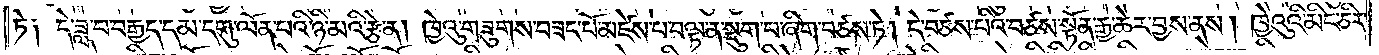ཏེ། དེ་ཟླ་བ་བརྒྱད་དམ་དགུ་ལོན་པའི་ཉི་མའི་རྩེ་ན། ཁྱེའུ་གཟུགས་བཟང་པོ་མཛེས་པ་བལྟ་ན་སྡུག་པ་ཞིག་བཙས་ཏེ། དེ་བཙས་པའི་བཙས་སྟོན་རྒྱ་ཆེར་བྱས་ནས། ཁྱེའུའི་མིང་ཅིར་
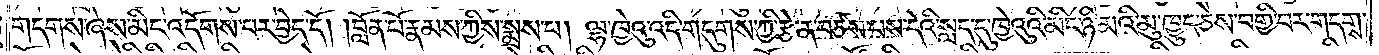གདགས་ཞེས་མིང་འདོགས་པར་བྱེད་དོ། །བློན་པོ་རྣམས་ཀྱིས་སྨྲས་པ། ལྷ་ཁྱེའུ་འདི་གདུགས་ཀྱི་རྩེ་ན་བཙས་པས་དེའི་སླད་དུ་ཁྱེའུའི་མིང་ཉི་མའི་མུ་ཁྱུད་ཅེས་བགྱི་བར་གདགས་
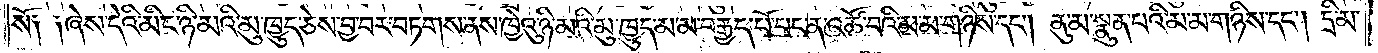སོ། །ཞེས་དེའི་མིང་ཉི་མའི་མུ་ཁྱུད་ཅེས་བྱ་བར་བཏགས་ནས་ཁྱེའུ་ཉི་མའི་མུ་ཁྱུད་མ་མ་བརྒྱད་པོ་པང་ན་འཚོ་བའི་མ་མ་གཉིས་དང༌། ནུ་མ་སྣུན་པའི་མ་མ་གཉིས་དང༌། དྲི་མ་
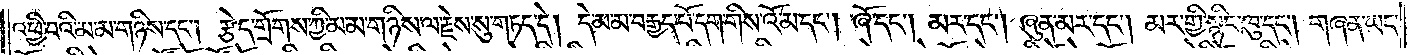འཕྱི་བའི་མ་མ་གཉིས་དང༌། རྩེད་གྲོགས་ཀྱི་མ་མ་གཉིས་ལ་རྗེས་སུ་གཏད་དེ། དེ་མ་མ་བརྒྱད་པོ་དག་གིས་འོ་མ་དང༌། ཞོ་དང༌། མར་དང༌། ཞུན་མར་དང༌། མར་གྱི་སྙིང་ཁུ་དང༌། གཞན་ཡང་
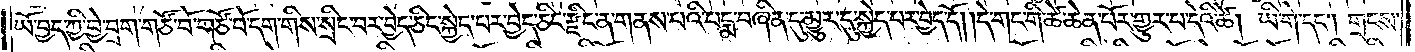ཡོ་བྱད་ཀྱི་བྱེ་བྲག་གཙོ་བོ་གཙོ་བོ་དག་གིས་སྲིང་བར་བྱེད་ཅིང་སྐྱེད་པར་བྱེད་ཅིང་རྫིང་ན་གནས་པའི་པདྨ་བཞིན་དུ་མྱུར་དུ་སྐྱེད་པར་བྱེད་དོ། །དེ་གང་གི་ཚེ་ཆེན་པོར་གྱུར་པ་དེའི་ཚེ། ཡི་གེ་དང༌། གྲངས་
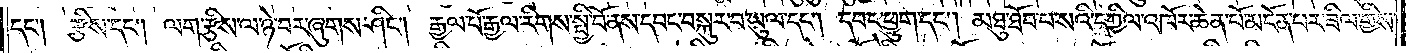དང༌། རྩིས་དང༌། ལག་རྩིས་ལ་ཉེ་བར་ཞུགས་ཤིང༌། རྒྱལ་པོ་རྒྱལ་རིགས་སྤྱི་བོ་ནས་དབང་བསྐུར་བ་ཡུལ་དང༌། དབང་ཕྱུག་དང༌། མཐུ་ཐོབ་པ་སའི་དཀྱིལ་འཁོར་ཆེན་པོ་མངོན་པར་ཟིལ་གྱིས་
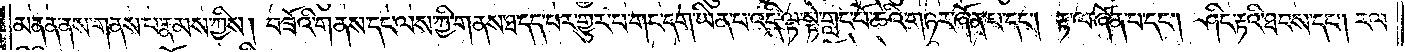མནན་ནས་གནས་པ་རྣམས་ཀྱིས། བཟོའི་གནས་དང་ལས་ཀྱི་གནས་ཐ་དད་པར་གྱུར་པ་གང་དག་ཡིན་པ་འདི་ལྟ་སྟེ་གླང་པོ་ཆེའི་གཉར་ཞོན་པ་དང༌། རྟ་ལ་ཞོན་པ་དང༌། ཤིང་རྟའི་ཐབས་དང༌། རལ་
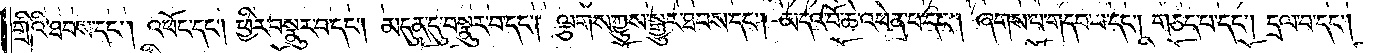གྲིའི་ཐབས་དང༌། འཕོང་དང༌། ཕྱིར་བསྣུར་བ་དང༌། མདུན་དུ་བསྣུར་བ་དང༌། ལྕགས་ཀྱུས་སྒྱུར་ཐབས་དང༌། མདའ་བོ་ཆེ་འཕེན་པ་དང༌། ཞགས་པ་གདབ་པ་དང༌། གཅད་པ་དང༌། དྲལ་བ་དང༌།
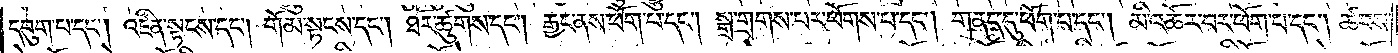དབུག་པ་དང༌། འཛིན་སྟངས་དང༌། གོམ་སྟངས་དང༌། ཐོར་ཚུགས་དང༌། རྒྱང་ནས་ཕོག་པ་དང༌། སྒྲ་གྲགས་པར་ཕོགས་པ་དང༌། གནད་དུ་ཕོག་པ་དང༌། མི་འཆོར་བར་ཕོག་པ་དང༌། ཚབས་
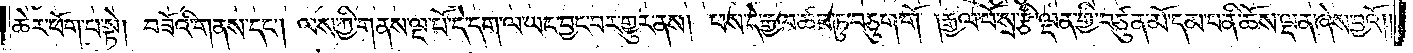ཆེར་ཕོག་པ་སྟེ། བཟོའི་གནས་དང༌། ལས་ཀྱི་གནས་ལྔ་པོ་དེ་དག་ལ་ཡང་བྱང་བར་གྱུར་ནས། ཕས་དེ་རྒྱལ་ཚབ་ཏུ་བཅུག་གོ །རྒྱལ་པོ་སྲ་རྩི་ལྡན་གྱི་བཙུན་མོ་དམ་པ་ནི་ཆོས་ལྡན་ཞེས་བྱའོ། །
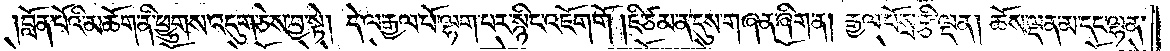།བློན་པོའི་མཆོག་ནི་ཕྱུགས་འདུག་ཅེས་བྱ་སྟེ། དེ་ལ་རྒྱལ་པོ་ལྷག་པར་སྙིང་འཇོག་གོ །ཇི་ཙམ་ན་དུས་གཞན་ཞིག་ན། རྒྱལ་པོ་སྲ་རྩི་ལྡན། ཆོས་ལྡན་མ་དང་ལྷན་
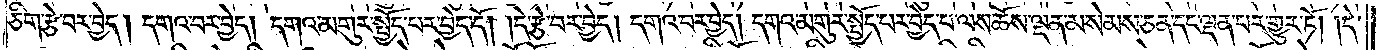ཅིག་རྩེ་བར་བྱེད། དགའ་བར་བྱེད། དགའ་མགུར་སྤྱོད་པར་བྱེད་དོ། །དེ་རྩེ་བར་བྱེད། དགའ་བར་བྱེད། དགའ་མགུར་སྤྱོད་པར་བྱེད་པ་ལས་ཆོས་ལྡན་མ་སེམས་ཅན་དང་ལྡན་པར་གྱུར་ཏོ། །དེ་
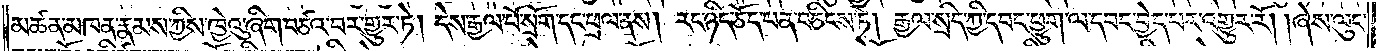མཚན་མཁན་རྣམས་ཀྱིས་ཁྱེའུ་ཞིག་བཙའ་བར་གྱུར་ཏེ། དེས་རྒྱལ་པོ་སྲོག་དང་ཕྲལ་ནས། རང་ཉིད་ཅོད་པན་བཅིངས་ཏེ། རྒྱལ་སྲིད་ཀྱི་དབང་ཕྱུག་ལ་དབང་བྱེད་པར་འགྱུར་རོ། །ཞེས་ལུང་
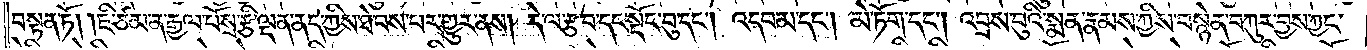བསྟན་ཏོ། །ཇི་ཙམ་ན་རྒྱལ་པོ་སྲ་རྩི་ལྡན་ནད་ཀྱིས་ཐེབས་པར་གྱུར་ནས། དེ་ལ་རྩ་བ་དང་སྡོང་བུ་དང༌། འདབ་མ་དང༌། མེ་ཏོག་དང༌། འབྲས་བུའི་སྨན་རྣམས་ཀྱིས་བསྙེན་བཀུར་བྱས་ཀྱང་
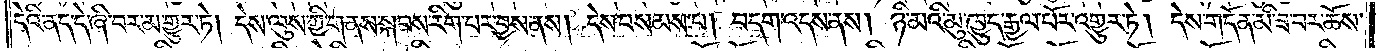དེའི་ནད་དེ་ཞི་བར་མ་གྱུར་ཏེ། དེས་ལུས་ཀྱི་གནས་སྐབས་རིག་པར་བྱས་ནས། དེས་བསམས་པ། བདག་འདས་ནས། ཉི་མའི་མུ་ཁྱུད་རྒྱལ་པོར་འགྱུར་ཏེ། དེས་གདོན་མི་ཟ་བར་ཆོས་
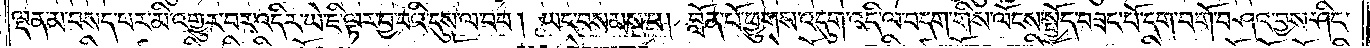ལྡན་མ་བསད་པར་མི་འགྱུར་བར་འདིར་ཡེ་ཇི་ལྟར་བྱ་བའི་དུས་ལ་བབ། ཡང་བསམས་པ། བློན་པོ་ཕྱུགས་འདུག་འདི་ལ་བདག་གིས་ལོངས་སྤྱོད་བཟང་པོ་དག་བགོ་བཤའ་བྱས་ཤིང་
